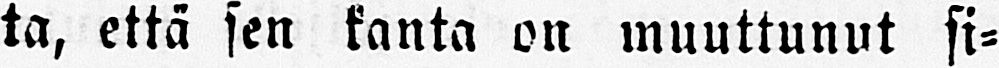ta, että sen kanta on muuttunut si-
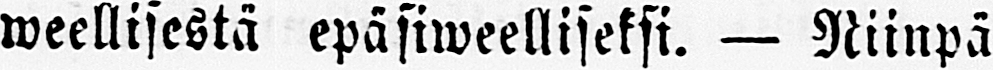weellisestä epäsiweelliseksi. — Niinpä
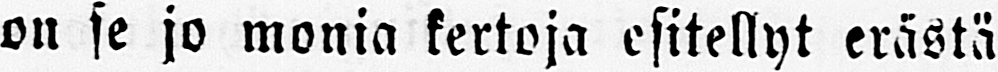on se jo monia kertoja esitellyt erästä
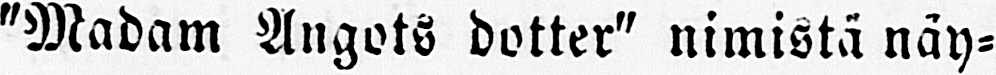"Madam Angots dotter" nimistä näy-
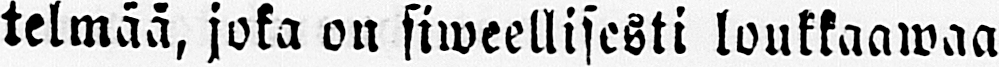telmää, joka on siweellisesti loukkaawaa
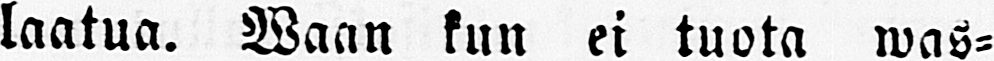laatua. Waan kun ei tuota was-
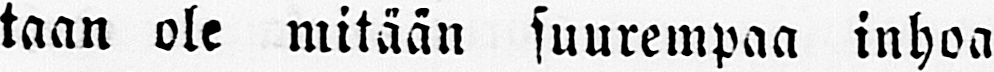taan ole mitään suurempaa inhoa
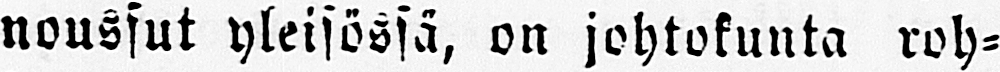noussut yleisössä, on johtokunta roh-
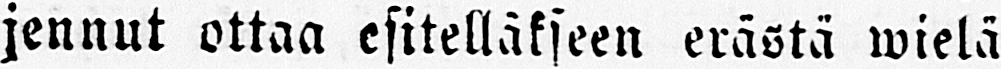jennut ottaa esitelläkseen erästä wielä
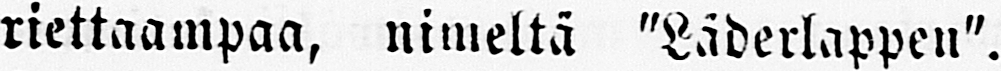riettaampaa, nimeltä "Läderlappen".
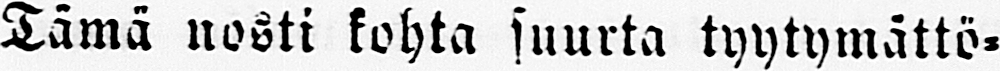Tämä nosti kohta suurta tyytymättö-
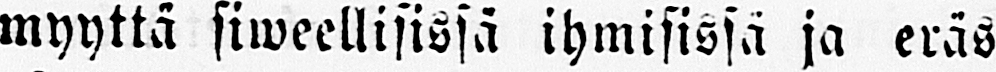myyttä siweellisissä ihmisissä ja eräs
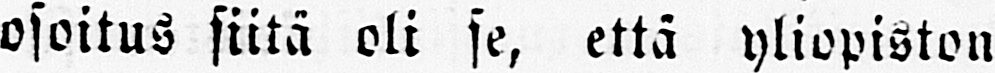osoitus siitä oli se, että yliopiston
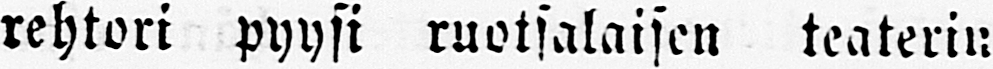rehtori pyysi ruotsalaisen teaterin
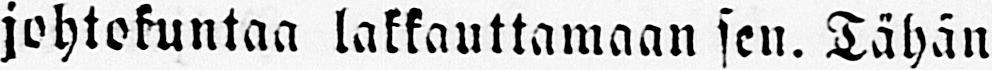johtokuntaa lakkauttamaan sen. Tähän
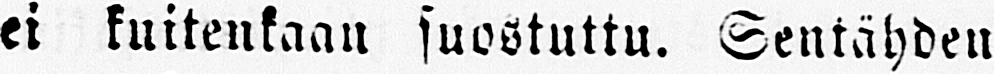ei kuitenkaan suostuttu. Sentähden
